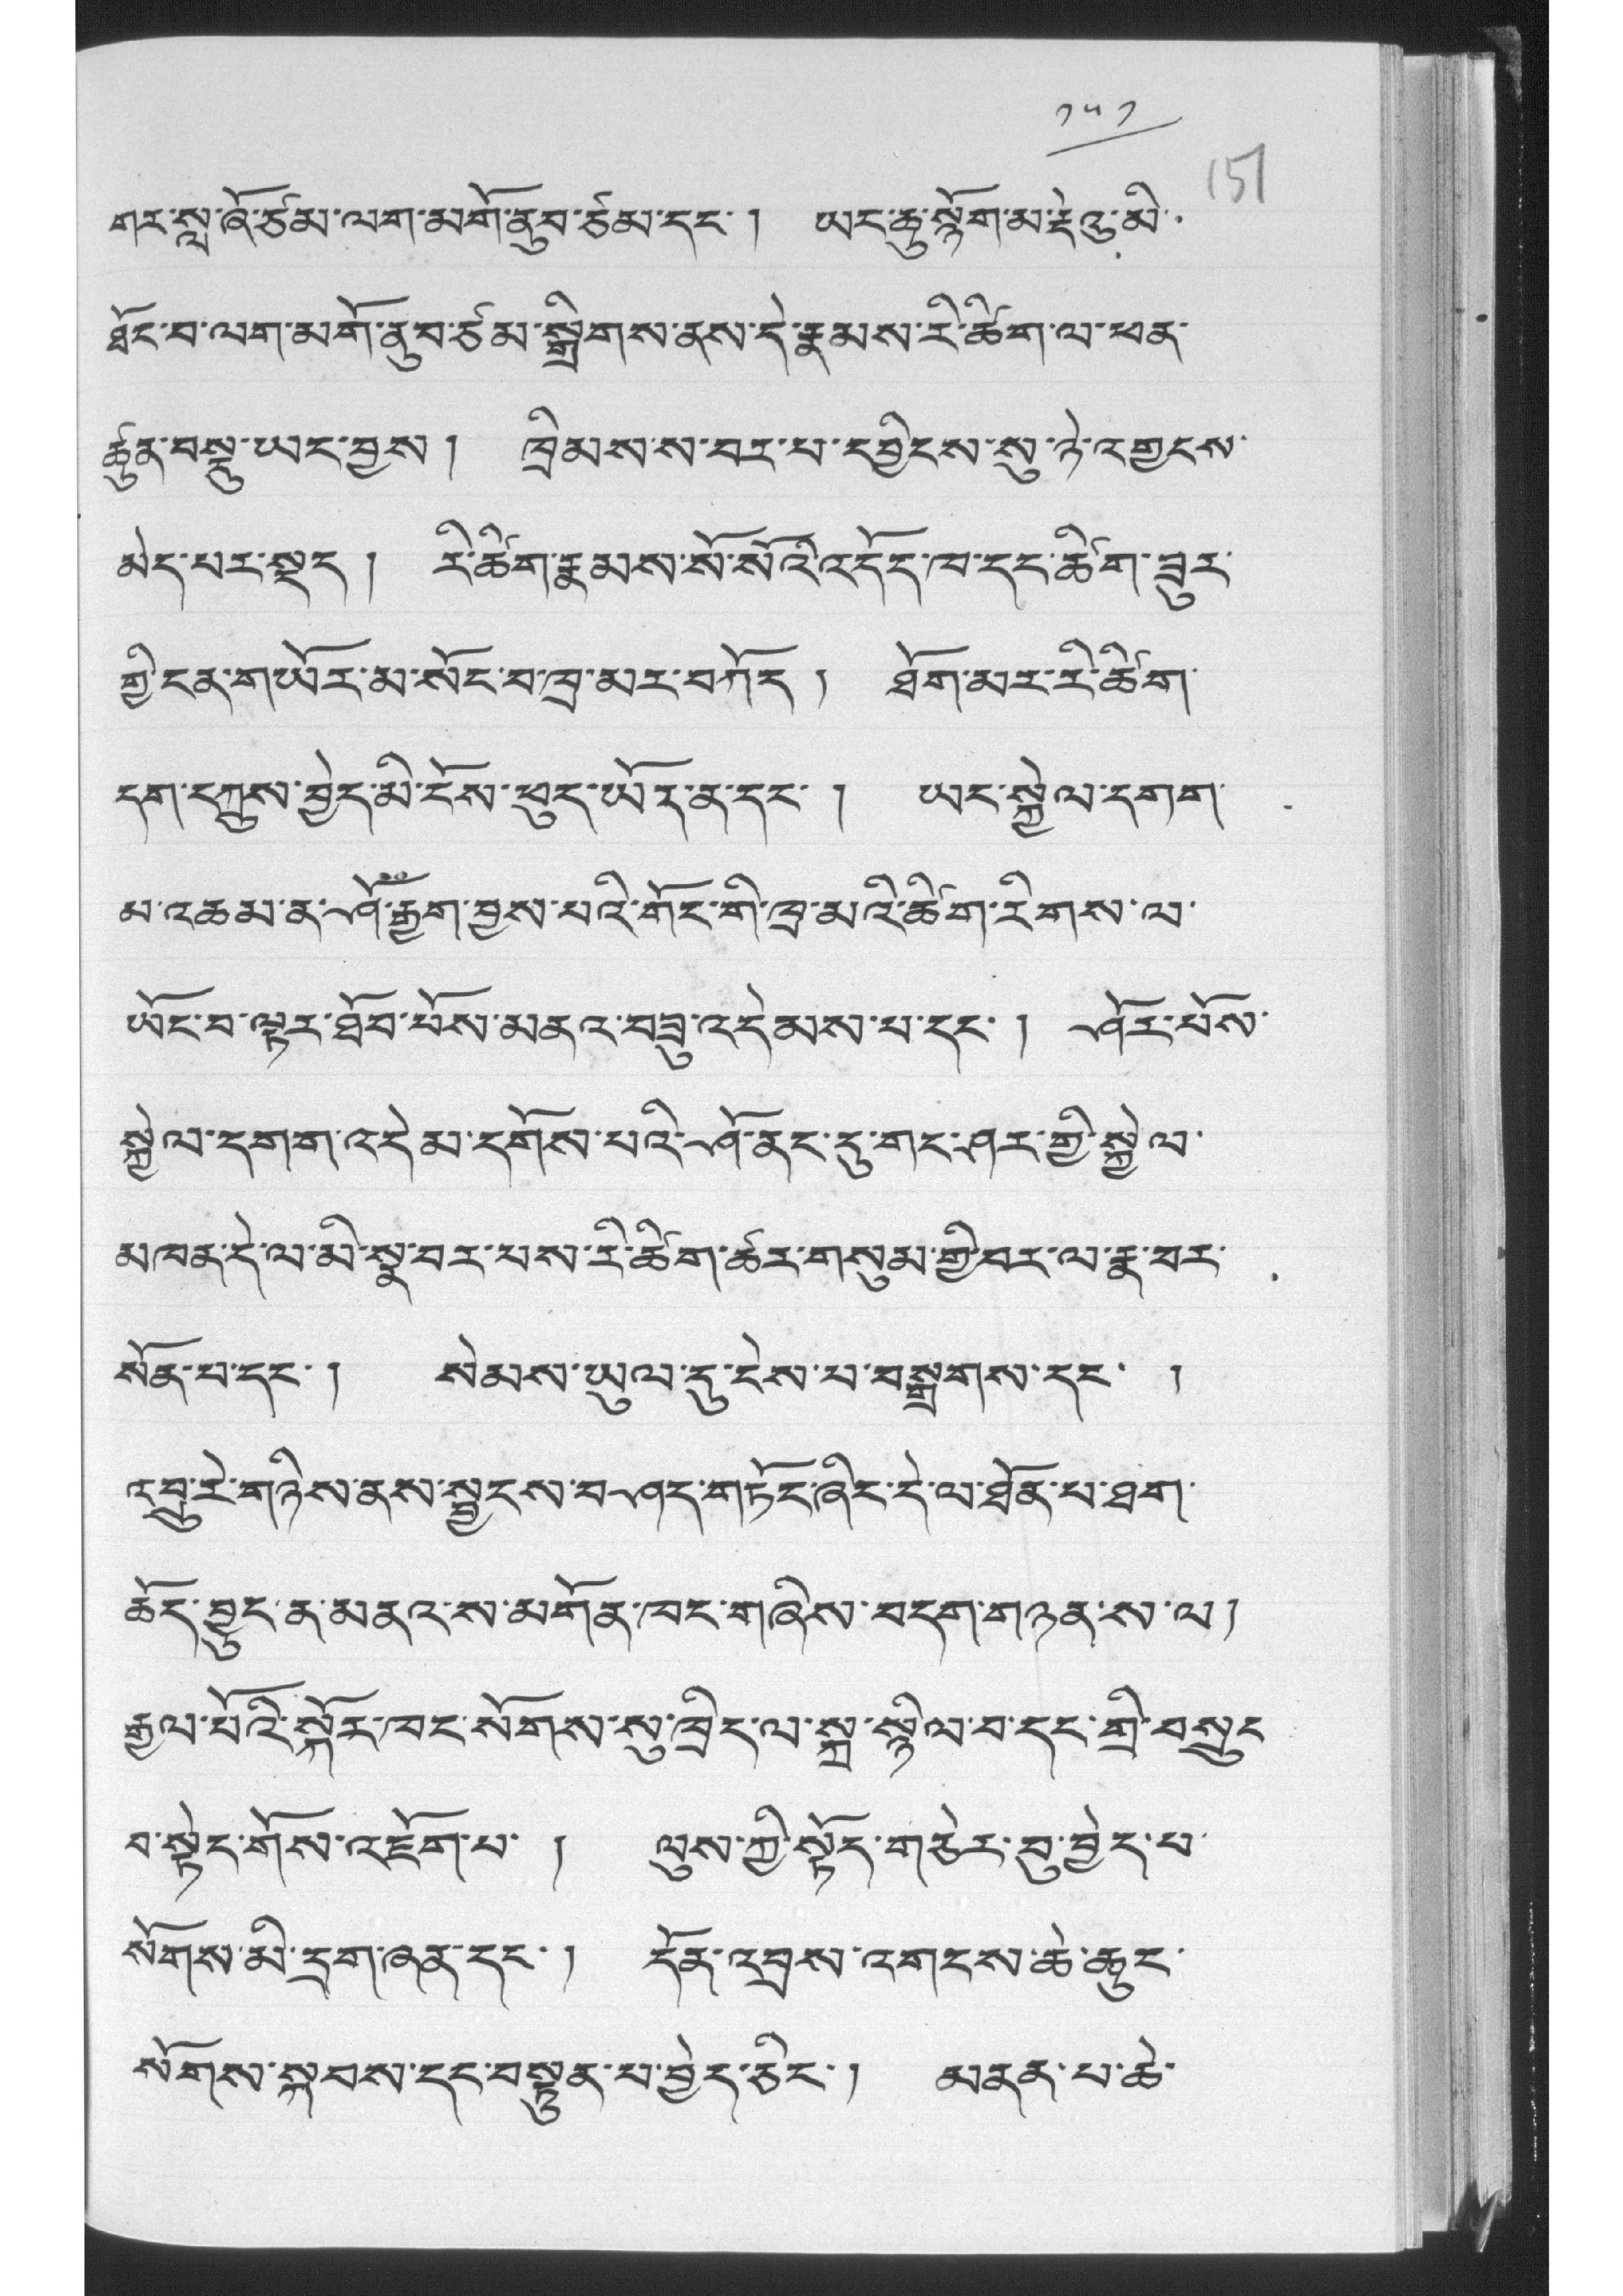༡༥༡
གར་སླ་ཞོ་ཙམ་ལག་མགོ་ནུབ་ཙམ་དང་། ཡང་ཆུ་སྙོག་མ་རྡེའུ་མི་་
ཐོང་བ་ལག་མགོ་ནུབ་ཙམ་སྒྲིགས་ནས་དེ་རྣམས་རི་ཚིག་ལ་ཕན་
ཚུན་བསྡུ་ཡང་བྱས། ཁྲིམས་ས་བར་པ་དབྱིངས་སུ་ཉེ་འགྱངས་
མེད་པར་སྡུད། རི་ཚིག་རྣམས་སོ་སོའི་འདོད་ཁ་དང་ཚིག་ཟུར་
གྱི་ངན་གཡོར་མ་སོང་བ་ཁྲ་མར་བཀོད ། ཐོག་མར་རི་ཚིག་
དག་དཀྲུས་བྱེད་མི་ངོས་ཕུད་ཡད་ན་དང་ ། ཡང་སྐྱེལ་དགག་
མ་འཆམ་ན་ཤོ་རྒྱག་བྱས་པའི་གོང་གི་ཁྲ་མའི་ཚིག་རིགས་ལ་
ཡོང་བ་ལྟར་ཐོབ་པོས་མནའ་བཟུ་འདེམས་པ་དང་ ། ཤོར་པོས་
སྐྱེལ་དགག་འདེམ་དགོས་པའི་ཤོ་ནང་དུ་གང་ཤར་གྱི་སྐྱེལ་
མཁན་དེ་ལ་མི་སྣེ་བར་པས་རི་ཚིག་ཚར་གསུམ་གྱི་བར་ལ་རྣ་བར་
སོན་པ་དང་། སེམས་ཡུལ་དུ་ངེས་པ་བསྒྲགས་དང་ །
འབྲུ་རེ་གཉིས་ནས་སྦྱངས་བཤད་གཏོང་ཞིང་དེ་ལ་ཐོན་པ་ཐག་
ཆོད་བྱུང་ན་མནའ་ས་མགོན་ཁང་གཞིས་བདག་གཉན་ས་ལ །
རྒྱལ་པོའི་སྐོར་ཁང་སོགས་སུ་ཁྲིད་ལ་སྐྲ་སྙིལ་བ་དང་གྲི་བསྲུང་
བ་སྟེང་གོས་འཇོག་པ་ ། ལུས་ཀྱི་སྟོད་གཅེར་བུ་བྱེད་པ་
སོགས་མི་དྲག་ཞན་དང་། དོན་འབྲས་འགངས་ཆེ་ཆུང་
སོགས་སྐབས་དང་བསྟུན་པ་བྱེད་ཅིང་། མནན་པ་ཆེ་
